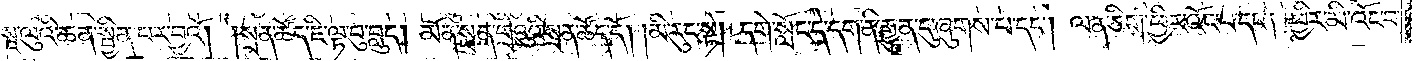སཱ་ལུའི་ཆན་སྦྱིན་པར་བྱའོ། །སྲན་ཚོ་ཇི་ལྟ་བུ་བླུད། མོན་སྲན་གྲོའུའི་སྲན་ཚོད་དོ། །མི་རུང་སྟེ། དགེ་སློང་དེ་དག་ནི་རྒྱུན་དུ་ཞུགས་པ་དང༌། ལན་ཅིག་ཕྱིར་འོང་བ་དང༌། ཕྱིར་མི་འོང་བ་
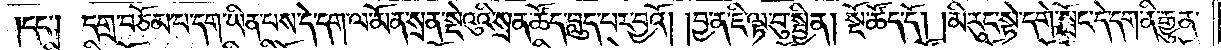དང༌། དགྲ་བཅོམ་པ་དག་ཡིན་པས་དེ་དག་ལ་མོན་སྲན་སྡེའུའི་སྲན་ཚོད་བླུད་པར་བྱའོ། །བྱ་ན་ཇི་ལྟ་བུ་སྦྱིན། སྔོ་ཚོད་དོ། མི་རུང་སྟེ་དགེ་སློང་དེ་དག་ནི་རྒྱུན་
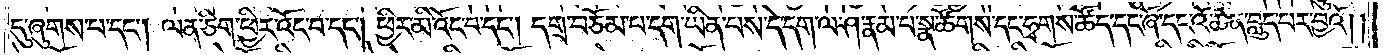དུ་ཞུགས་པ་དང༌། ལན་ཅིག་ཕྱིར་འོང་བ་དང༌། ཕྱིར་མི་འོང་བ་དང༌། དགྲ་བཅོམ་པ་དག་ཡིན་པས་དེ་དག་ལ་ཤ་རྣམ་སྣ་ཚོགས་དང་ཧྭགས་ཚོད་དང་ཞ་དང་ཚན་བླུད་པར་བྱའོ། །
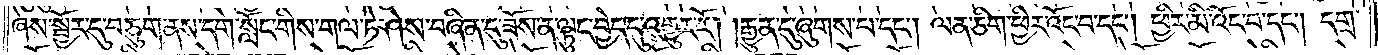ཞེས་སྦྱོར་དུ་བཅུག་ནས་དགེ་སློང་གིས་གལ་ཏེ་ཤེས་བཞིན་དུ་ཟོས་ན་ལྟུང་བྱེད་དུ་འགྱུར་རོ། །རྒྱུན་དུ་ཞུགས་པ་དང༌། ལན་ཅིག་ཕྱིར་འོང་བ་དང༌། ཕྱིར་མི་འོང་བ་དང༌། དགྲ་
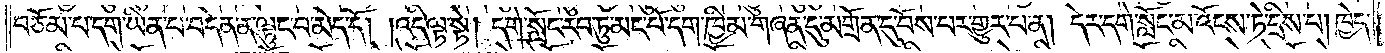བཅོམ་པ་དག་ཡིན་པ་བདེན་ན་ལྟུང་བ་མེད་དོ། །འདི་ལྟ་སྟེ། དགེ་སློང་རབ་ཏུ་མང་པོ་དག་ཁྱིམ་གཞན་དུ་མགྲོན་དུ་བོས་པར་གྱུར་པ་ན། དེར་དགེ་སློང་མ་འོངས་ཏེ་དྲིས་པ། ཁྱེད་
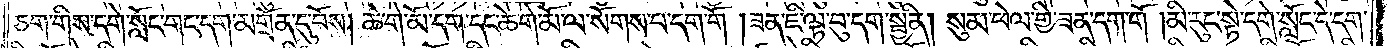ཅག་གིས་དགེ་སློང་གང་དག་མགྲོན་དུ་བོས། ཆེ་གེ་མོ་དག་དང་ཆེ་གེ་མོ་ལ་སོགས་པ་དག་གོ །ཟན་ཇི་ལྟ་བུ་དག་སྦྱིན། སུམ་ཕེལ་གྱི་ཟན་དག་གོ །མི་རུང་སྟེ་དགེ་སོང་དེ་དག་
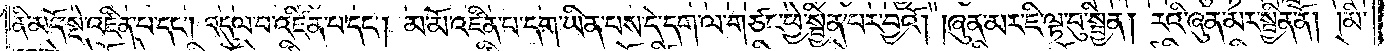ནི་མདོ་སྡེ་འཛིན་པ་དང་། འདུལ་བ་འཛིན་པ་དང༌། མ་མོ་འཛིན་པ་དག་ཡིན་པས་དེ་དག་ལ་གཙང་ཕྱེ་སྦྱིན་པར་བྱའོ། ཞུན་མར་ཇི་ལྟ་བུ་སྦྱིན། རའི་ཞུན་མར་སྦྱིན་ནོ། །མི་
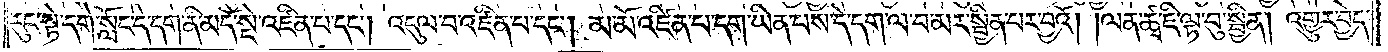རུང་སྟེ་དགེ་སློང་དེ་དག་ནི་མདོ་སྡེ་འཛིན་པ་དང༌། འདུལ་བ་འཛིན་པ་དང༌། མ་མོ་འཛིན་པ་དག་ཡིན་པས་དེ་དག་ལ་བ་མར་སྦྱིན་པར་བྱའོ། །ལན་ཚྭ་ཇི་ལྟ་བུ་སྦྱིན། འགྱུར་བྱེད་
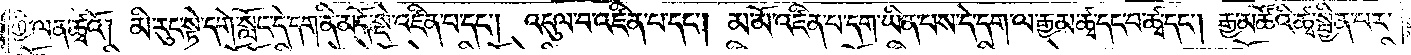ཀྱི་ལན་ཚྭའོ། །མི་རུང་སྟེ་དགེ་སློང་དེ་དག་ནི་མདོ་སྡེ་འཛིན་པ་དང༌། འདུལ་བ་འཛིན་པ་དང༌། མ་མོ་འཛིན་པ་དག་ཡིན་པས་དེ་དག་ལ་རྒྱམ་ཚྭ་དང་བ་ཚྭ་དང༌། རྒྱ་མཚོའི་ཚྭ་སྦྱིན་པར་
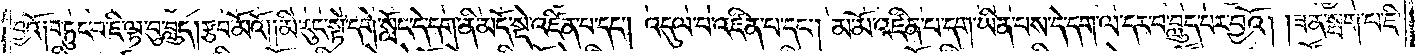བྱའོ། །བཏུང་བ་ཇི་ལྟ་བུ་བླུད། རྩབ་མོའི། །མི་རུང་སྟེ་དགེ་སློང་དེ་དག་ནི་མདོ་སྡེ་འཛིན་པ་དང༌། འདུལ་བ་འཛིན་པ་དང༌། མ་མོ་འཛིན་པ་དག་ཡིན་པས་དེ་དག་ལ་དར་བ་བླུད་པར་བྱའོ། །ཟན་སྤག་པ་ཇི་
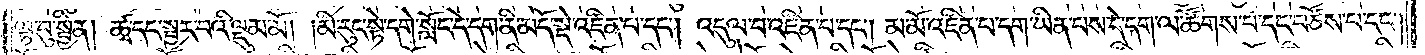ལྟ་བུ་སྦྱིན། ཚྭ་དང་སྦྱར་བའི་ལྡུམ་མོ། །མི་རུང་སྟེ་དགེ་སློང་དེ་དག་ནི་མདོ་སྡེ་འཛིན་པ་དག། འདུལ་བ་འཛིན་པ་དང༌། མ་མོ་འཛིན་པ་དག་ཡིན་པས་དེ་དག་ལ་ཚོགས་པ་དང་བཙོས་པ་དང༌།
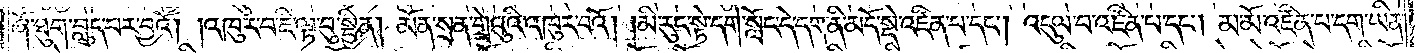ཞོ་ཐུག་བླུད་པར་བྱའོ། །འཁུར་བ་ཇི་ལྟ་བུ་སྦྱིན། མོན་སྲན་གྲེའུའི་འཁུར་བའོ། །མི་རུང་སྟེ་དགེ་སློང་དེ་དག་ནི་མདོ་སྡེ་འཛིན་པ་དང༌། འདུལ་བ་འཛིན་པ་དང༌། མ་མོ་འཛིན་པ་དག་ཡིན་
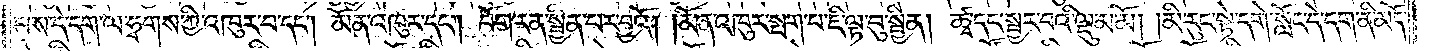པས་དེ་དག་ལ་ཧྭགས་ཀྱི་འཁུར་བ་དང༌། མོན་འཁུར་བ་དང༌། བོག་རན་སྦྱིན་པར་བྱའོ། །མོན་འཁུར་སྦག་པར་ཇི་ལྟ་བུ་སྦྱིན། ཚྭ་དང་སྦྱར་བའི་ལྡུམ་མོ། མི་རུང་སྟེ་དགེ་སློང་དེ་དག་ནི་མདོ་
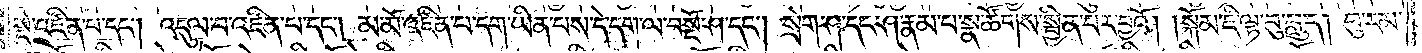སྡེ་འཛིན་པ་དང༌། འདུལ་བ་འཛིན་པ་དང་། མ་མོ་འཛིན་པ་དག་ཡིན་པས་དེ་དག་ལ་བསྔོ་ཤ་དང༌། སྲེག་ཤ་དང་ཤ་རྣམ་པ་སྣ་ཚོགས་སྦྱིན་པར་བྱའོ། །སྐོམ་ཇི་ལྟ་བུ་བླུད། བུ་རམ་
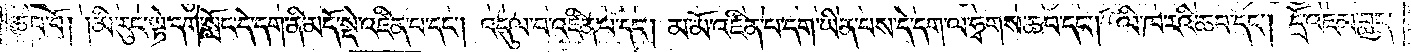ཆབ་བོ། །མི་རུང་སྟེ་དགེ་སློང་དེ་དག་ནི་མདོ་སྡེ་འཛིན་པ་དང༌། འདུལ་བ་འཛིན་པ་དང༌། མ་མོ་འཛིན་པ་དག་ཡིན་པས་དེ་དག་ལ་ཧྭགས་ཆབ་དང༌། ལི་ཁ་རའི་ཆབ་དང༌། དྲོ་འཇམ་བླུད་
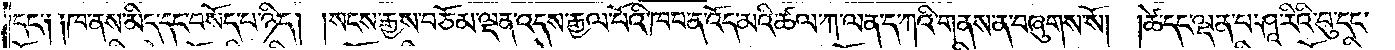དང་༑ ༑ཁ་ནས་མིད་དང་བསོད་པ་ཉིད།    །སངས་རྒྱས་བཅོམ་ལྡན་འདས་རྒྱལ་པོའི་ཁབ་ན་འོད་མའི་ཚལ་ཀ་ལན་ད་ཀའི་གནས་ན་བཞུགས་སོ། །ཚེ་དང་ལྡན་པ་ཤཱ་རིའི་བུ་དང་
